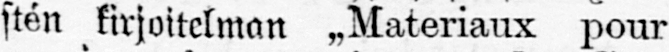stén kirjoitelman „Materiaux pour
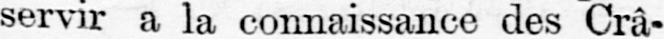servir a la connaissance des Crâ-
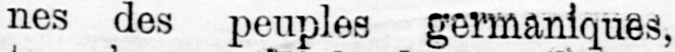nes des peuples germaniques,
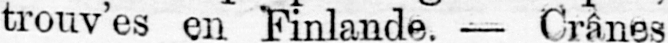trouv’es en Finlande. — Crânes.
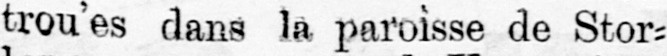trou’es dans la paroisse de Stor-
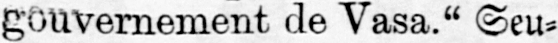gouvernement de Vasa." Seu-
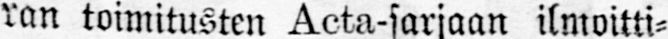ran toimitusten ilmoitti-
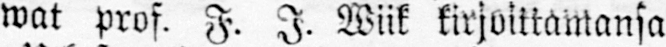wat prof. F. I. Wiik kirjoittamansa
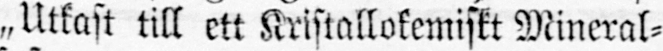„Utkast till ett Kristallokemiskt Mineral-
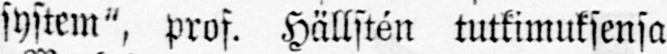system", prof. Hällstén tutkimuksensa
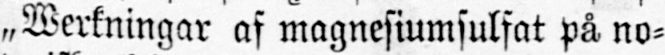„Werkningar af magnesiumsulfat på no-
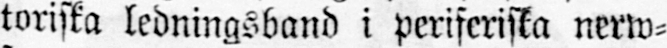toriska ledningsband i periferista nerw-
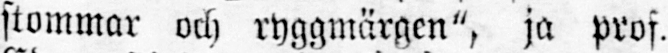stommar och ryggmärgen", ja prof.
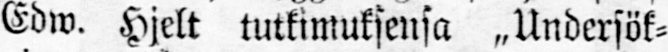Edw. Hjelt tutkimuksensa „Undersök-
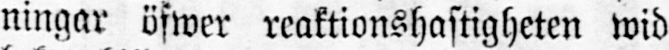ningar öfwer reaktionshastigheten wid
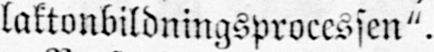laktonbildningsprocessen".
